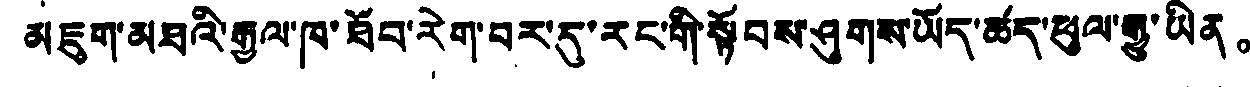མཇུག་མཐའི་རྒྱལ་ཁ་ཐོབ་རེག་བར་དུ་རང་གི་སྟོབས་ཤུགས་ཡོད་ཚད་ཕུལ་རྒྱུ་ཡིན。
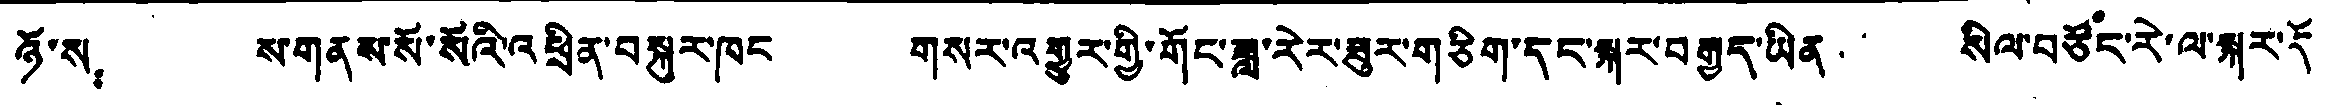ཉོ་ས： ས་གནས་སོ་སོའི་འཕྲིན་བསྐུར་ཁང གསར་འགྱུར་གྱི་གོང་ཟླ་རེར་ཟུར་གཅིག་དང་སྐར་བརྒྱད་ཡིན སིལ་བཙོང་རེ་ལ་སྐར་དོ་
